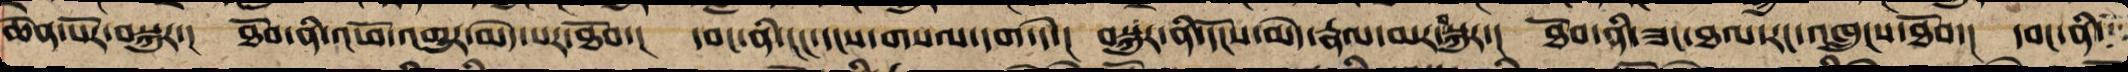ཆེན་པོར་བསྐུར་། ཐོབ་ནི་འཕོ་འགྱུར་མེད་པར་ཐོབ་། དབང་ནི་ངང་དངས་གསལ་དག་སྟེ་། བསྐུར་ནི་དངོས་མེད་རྣལ་མར་བསྐུར་། ཐོབ་ནི་ཟང་ཐལ་རང་བྱུང་ཐོབ་། དབང་ནི་
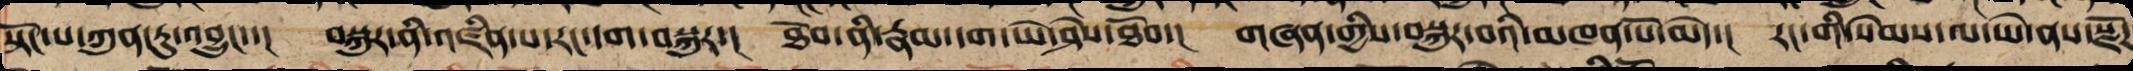སྟོང་པ་ཀུན་ཏུ་འབྱུང་་། བསྐུར་ནི་འཛིན་པ་རང་དག་བསྐུར་། ཐོབ་ནི་རྣམ་དག་ཡེ་ཤེས་ཐོབ་། གཞན་གྱིས་བསྐུར་བའི་མཁན་པོ་མེད་། རང་གི་སེམས་ལ་ཡེ་ནས་སྫོཌ
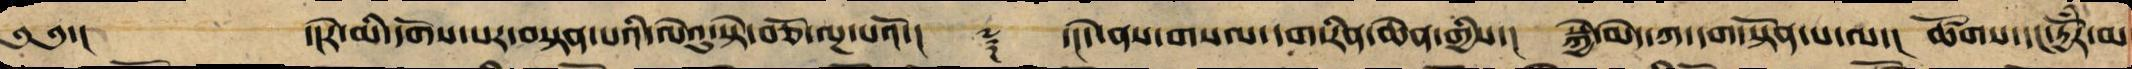༄༅་། ་།རེ་མི་དགོས་པར་བསྟན་པའི་ལེའུ་སྟེ་བཅོ་ལྔ་པའོ་།། ༈ ་།།དེ་ནས་གསལ་དག་རིན་ཆེན་གྱིས་། སྐྱེ་མེད་ཀ་དག་སྟོན་པ་ལ་། ཚོགས་དང་ཏྱོཾར་མ་
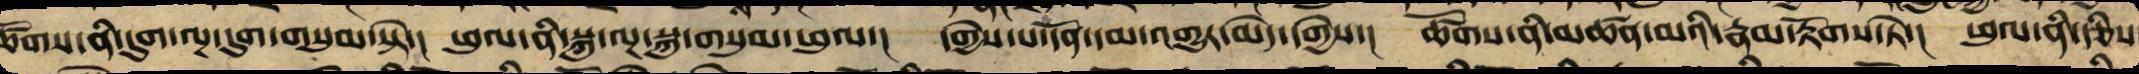ཚོགས་ནི་དུག་ལྔ་དུག་གསུམ་སྟེ་། ཕུལ་ནི་སྐུ་ལྔ་སྐུ་གསུམ་ཕུལ་། དགྱེས་པ་དོན་དམ་འགྱུར་མེད་དགྱེས་། ཚོགས་ནི་མཚན་མའི་རྣམ་རྟོགས་སྟེ་། ཕུལ་ནི་རྩིས་
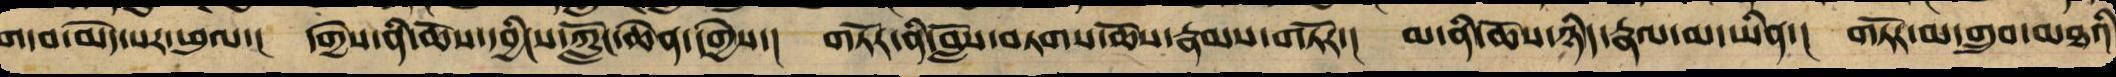གདབ་མེད་པར་ཕུལ་། དགྱེས་ནི་ཆོས་དབྱིངས་ཀློང་ཆེན་དགྱེས་། གཏོར་ནི་བློས་བཏགས་ཆོས་རྣམས་གཏོར་། མ་ནི་ཆོས་ཉིད་རྣལ་མ་ཡིན་། གཏོར་མ་གྲུབ་མཐའི
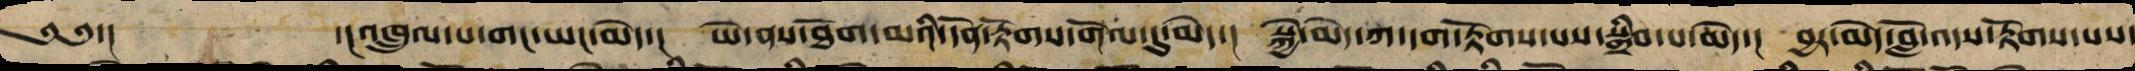༄༅་། ་།འཁྲུལ་པ་གང་ཡང་མེད་། ཡེ་ནས་ཐོག་མའི་དོན་རྟོགས་གོལ་དུ་མེད་། སྐྱེ་མེད་ཀ་དག་རྟོགས་པས་སྒྲིབ་པ་མེད་། བྱར་མེད་བློ་འདས་རྟོགས་པས་
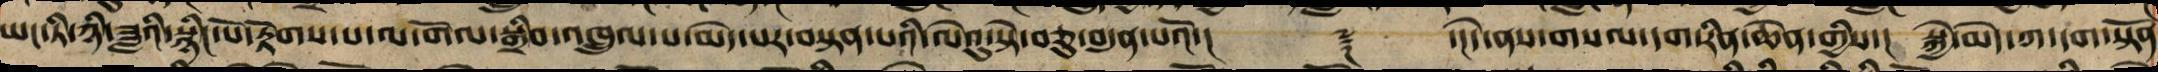ཡང་ཏི་ཉི་ཟླའི་སྙིང་པོ་རྟོགས་པ་ལ་གོལ་སྒྲིབ་འཁྲུལ་པ་མེད་པར་བསྟན་པའི་ལེའུ་སྟེ་བཅུ་བདུན་པའོ་།། ༈ ་།།དེ་ནས་གསལ་དག་རིན་ཆེན་གྱིས་། སྐྱེ་མེད་ཀ་དག་སྟོན
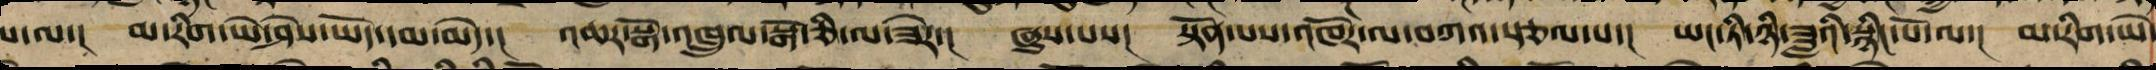པ་ལ་། མ་རིག་ཡེ་ཤེས་ཡོད་དམ་མེད་། འཆར་སྒོ་འཁྲུལ་སྒོ་ཅི་ལ་ཟེར་། ཞུས་པས། སྟོན་པས་འཁོར་ལ་བཀའ་སྩལ་པ་། ཡང་ཏི་ཉི་ཟླའི་སྙིང་པོ་ལ་། མ་རིག་ཡེ་
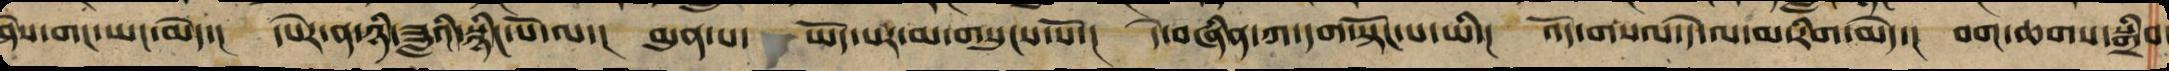ཤེས་གང་ཡང་མེད་། དཔེར་ན་ཉི་ཟླའི་སྙིང་པོ་ལ་། མུན་པ་ཡོད་པར་མ་གསུངས་སོ་། དེ་བཞིན་ཀ་དག་སྟོང་པ་ཡི་། འོད་གསལ་དེ་ལ་མ་རིག་མེད་། བག་ཆགས་སྒྲིབ
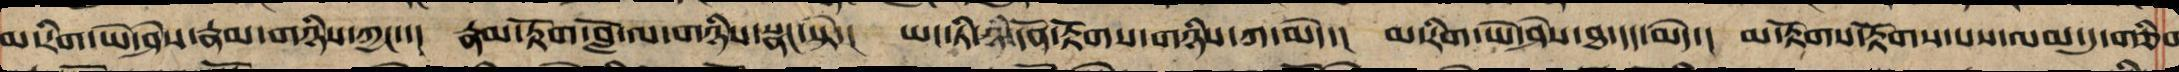མ་རིག་ཡེ་ཤེས་རྣམ་གཉིས་ཀྱང་་། རྣམ་རྟོག་བློ་ལ་གཉིས་སྣང་ཏེ་། ཡང་ཏི་ཉཾ་དོན་རྟོགས་གཉིས་ཀ་མེད་། མ་རིག་ཡེ་ཤེས་ཐ་དད་མེད་། མ་རྟོགས་རྟོགས་པས་ལམ་དུ་གཅིག
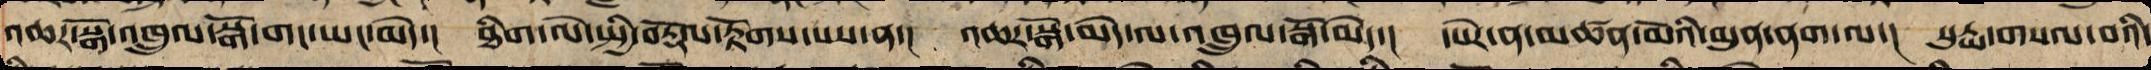འཆར་སྒོ་འཁྲུལ་སྒོ་གང་ཡང་མེད་། ཐིག་ལེ་སྤྱི་བརྟོལ་རྟོགས་པས་ན་། འཆར་སྒོ་མེད་ལ་འཁྲུལ་སྒོ་མེད་། དཔེར་ན་མཚན་མོའི་མུན་ནག་ལ་། སུརྱ་གསལ་བའི་
